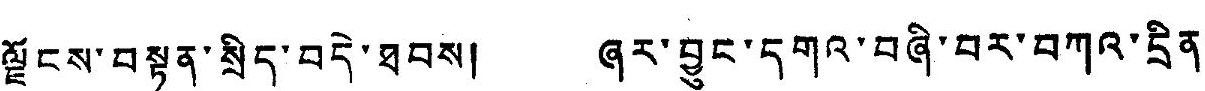ལྗོངས་བསྟན་སྲིད་བདེ་ཐབས། ཞར་བྱུང་དགའ་བཞི་བར་བཀའ་དྲིན་
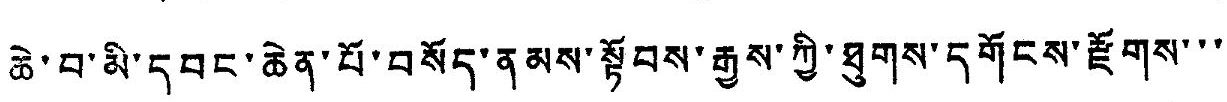ཆེ་བ་མི་དབང་ཆེན་པོ་བསོད་ནམས་སྟོབས་རྒྱས་ཀྱི་ཐུགས་དགོངས་རྫོགས་་་
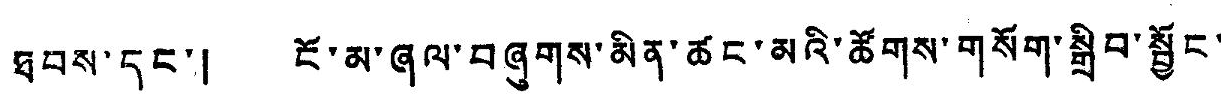ཐབས་དང་། ངོ་མ་ཞལ་བཞུགས་མིན་ཚང་མའི་ཚོགས་གསོག་སྒྲིབ་སྦྱོང་
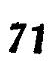71
